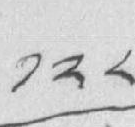༡༢༨
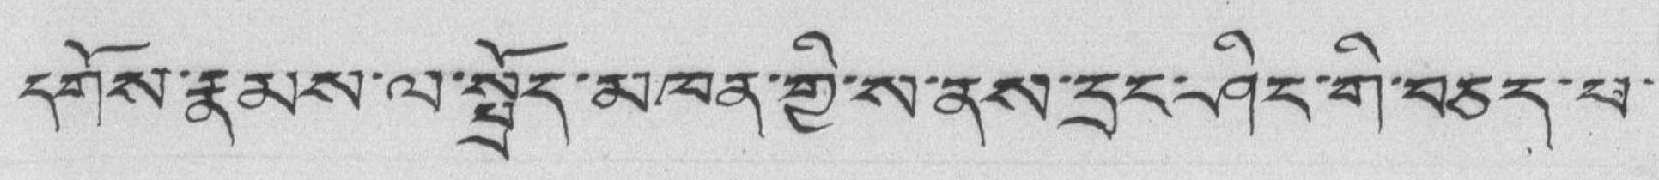དགོས་རྣམས་ལ་སྤྲོད་མཁན་གྱི་ས་ནས་དྲང་ཤིང་གི་བཅད་པ་
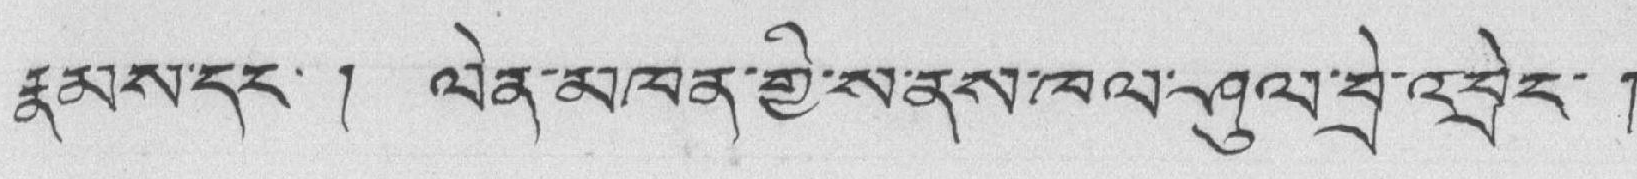རྣམས་དང་། ལེན་མཁན་གྱི་ས་ནས་ཁལ་ཤུལ་བྲེ་འབྲེང་ །
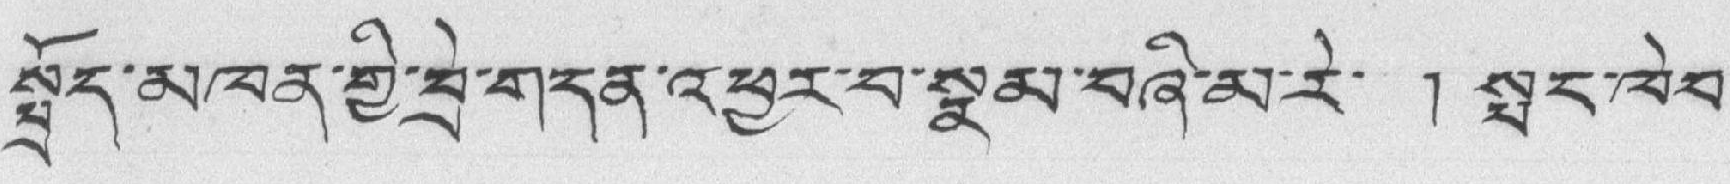སྤྲོད་མཁན་གྱི་བྲེ་གདན་འཕྱར་བ་སྣམ་བཞི་མ་རེ་ ། སྤང་ཁེབ་
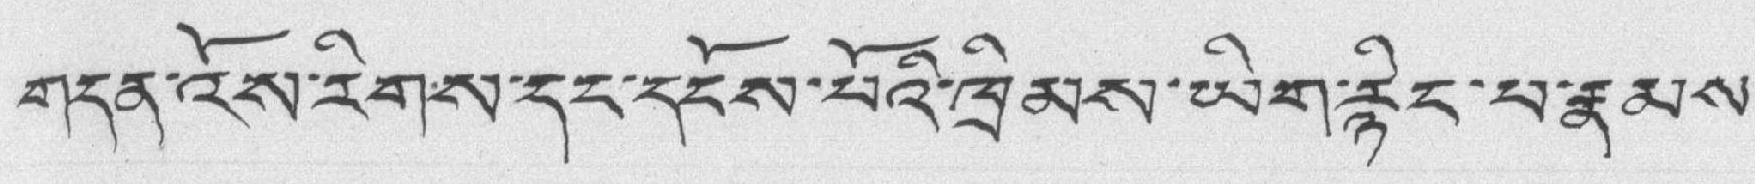གདན་འོས་རིགས་དང་དངོས་པོའི་ཁྲིམས་ཡིག་རྙིང་པ་རྣམས་
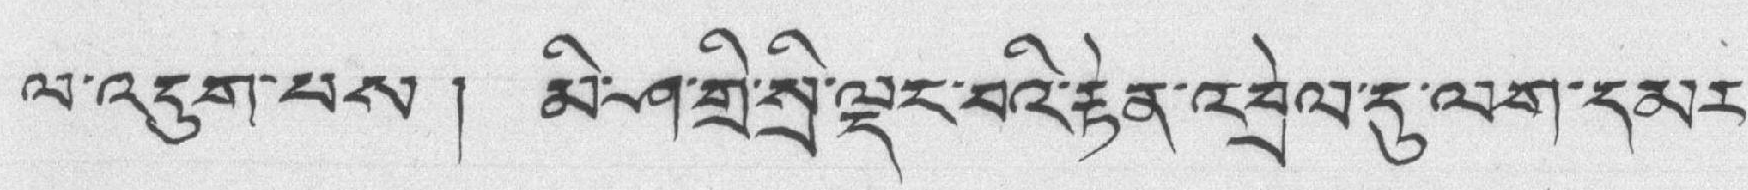ལ་འདུག་པས ། མི་ཤ་གྲི་སྲི་ལྡང་བའི་རྟེན་འབྲེལ་དུ་ལག་དམར་
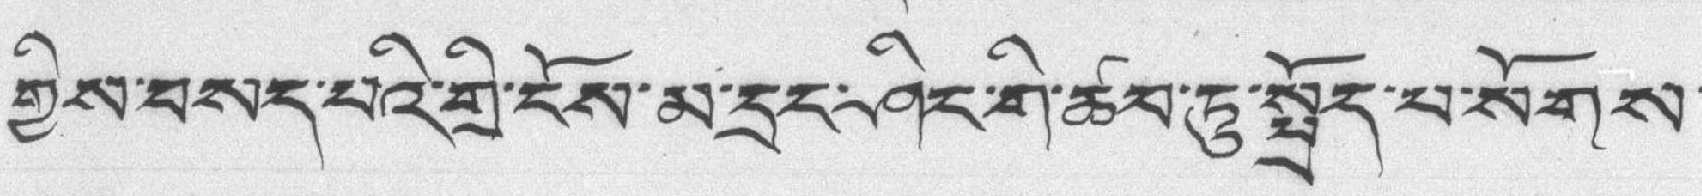གྱིས་བསད་པའི་གྲི་ངོས་མ་དྲང་ཤིང་གི་ཚབ་ཏུ་སྤྲོད་པ་སོགས་
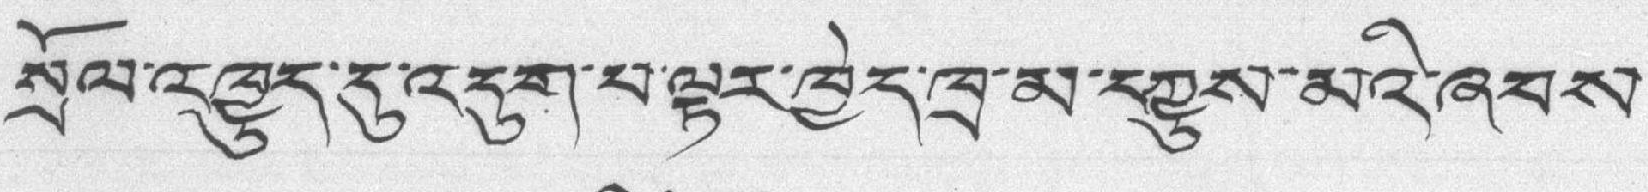སྲོལ་འཁྱུད་དུ་འདུག་པ་ལྟར་ཁྱེད་ཁྲ་མ་དཀྱུས་མའི་ཞབས་
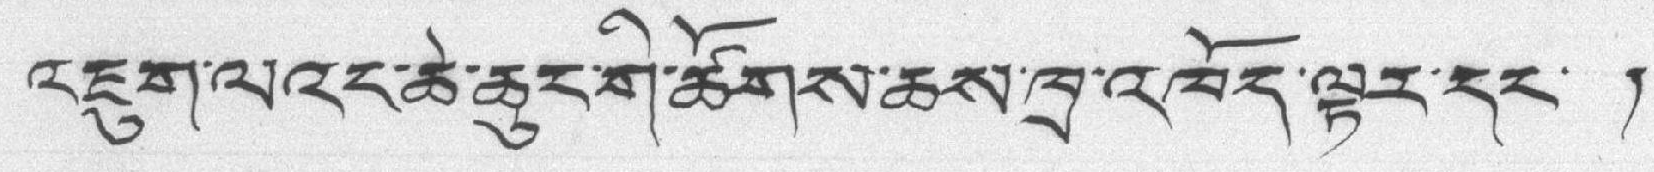འཇུག་ལའང་ཆེ་ཆུང་གི་ཚོགས་ཆས་ཁྲི་འཁོད་ལྟར་དང་ །
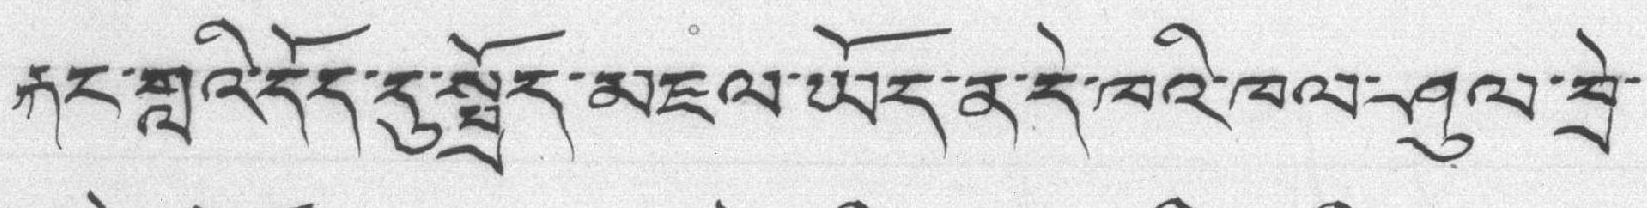རྐང་གླའི་དོད་དུ་སྤྲོད་མཇལ་ཡོད་ན་དེ་ཁའི་ཁལ་ཤུལ་བྲེ་
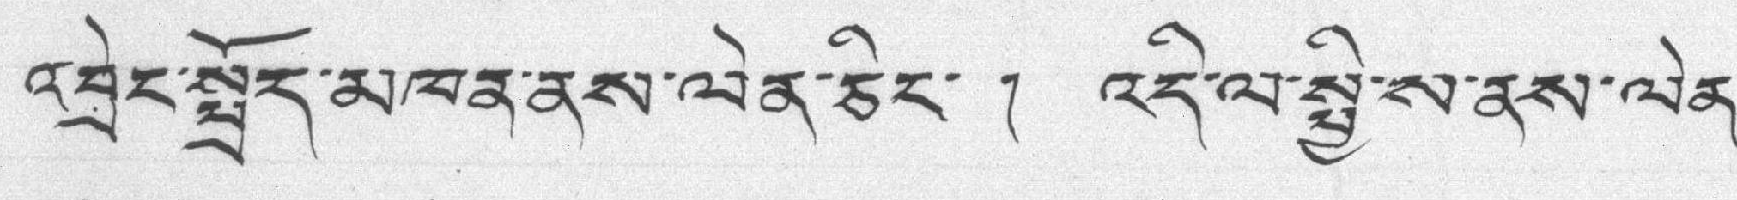འབྲེང་སྤྲོད་མཁན་ནས་ལེན་ཅིང་ ། འདི་ལ་སྤྱི་ས་ནས་ལེན་
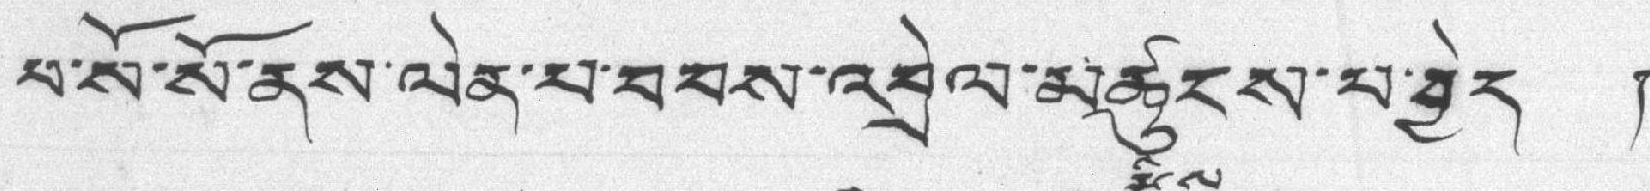པ་སོ་སོ་ནས་ལེན་པ་བབས་འབྲེལ་མཚུངས་པ་བྱེད །
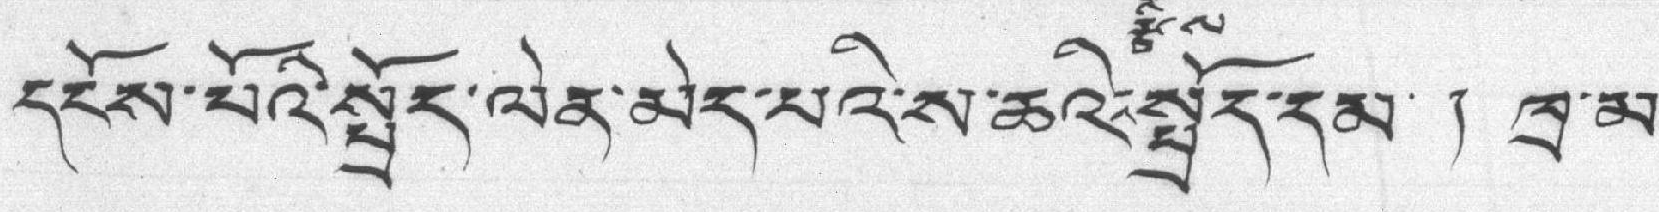དངོས་པོའི་སྤྲོད་ལེན་མེད་པའི་ས་ཆའི་རྩིས་སྤྲོད་དམ་ ། ཁྲ་མ་
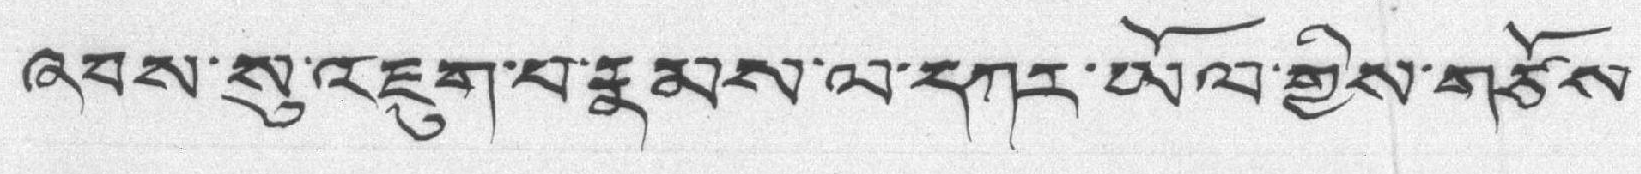ཞབས་སུ་འཇུག་པ་རྣམས་ལ་དཀར་ཡོལ་གྱིས་གཙོས་
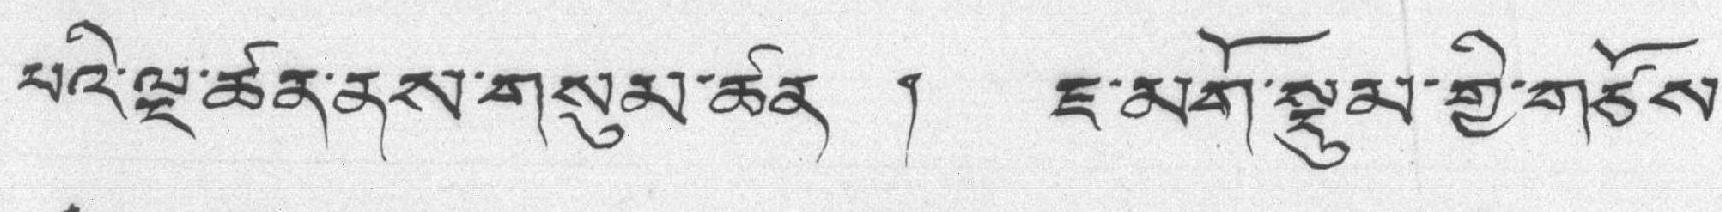པའི་ལྔ་ཚན་ནས་གསུམ་ཚན ། ཇ་མགོ་སྡུམ་གྱི་གཙོས་
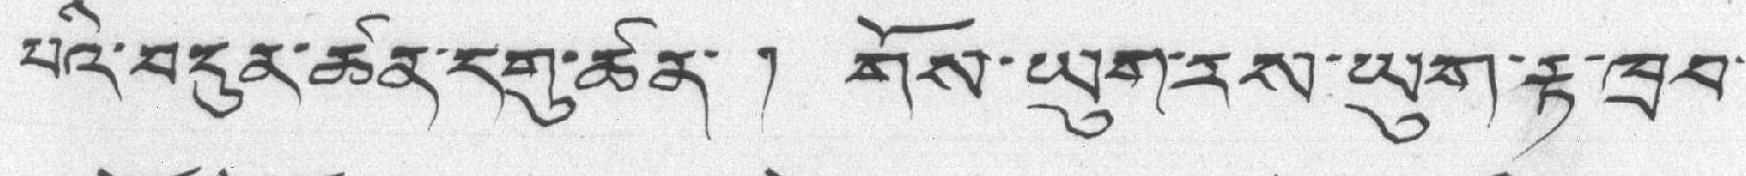པའི་བདུན་ཚན་དགུ་ཚན་ ། གོས་ཡུག་རས་ཡུག་རྟ་ཁྲབ་
